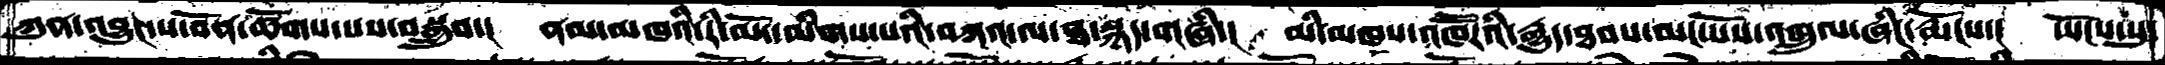ཀུན་འབྱུང་ས་བོན་ཚོགས་པས་བསྒྲུབ་།  ནམ་མཁའི་རི་མོ་དམིགས་པའི་བཀའ་ལ་ཐ་སྙད་གཞི་།  མི་མཁས་འཁཽརའི་རྒྱུད་ཐབས་མང་པོས་འཁྲུལ་ཞིང་རྨོངས་།  ཡོངས་སུ་
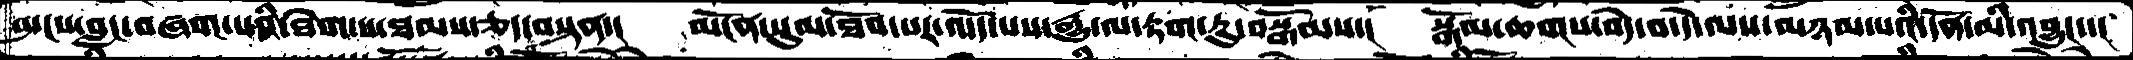སྤངས་བླང་བཞག་པའི་ཐེག་པ་ཐམས་ཅད་བསྟན་།  མངོན་སུམ་ཐོབ་པར་འདོད་པས་རྒྱུ་ལ་རྟག་ཏུ་བསྒོམས་།  སྒོམ་ཆགས་བདེ་བ་དེ་ལས་མཉམ་པའི་དོན་མི་འབྱུང་་།
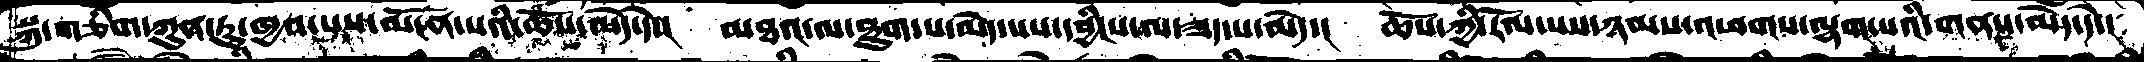སྐུ་གཅིག་ཀུན་ཏུ་ཁྱབ་པས་མངོན་པའི་ཆོས་མེད་དེ་།   མཐའ་ལ་ཐུག་པ་མེད་པས་དབྱིངས་ལ་ཟད་པ་མེད་།  ཆོས་ཀྱི་རོལ་པས་ཉམས་འཕགས་ལྷག་པའི་གནས་མེད་དེ་།
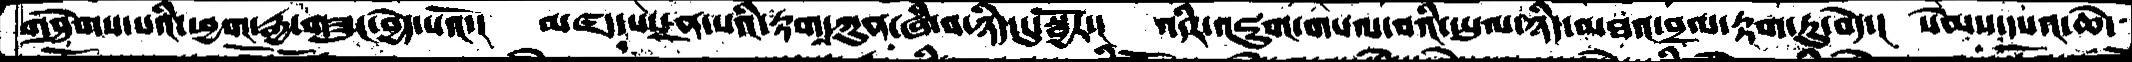གཤེགས་པའི་ཕྱག་རྒྱ་གཟུང་བྱེད་པའོ་།  མཛད་པ་དྲན་པའི་རྟག་ཀུན་ཞི་བ་ཉིད་དུ་སྦྱོར་།  འདིར་འཇུག་གསལ་བའི་ཡུལ་ཉིད་མཐའ་བྲལ་རྟག་ཏུ་བདེ་།  སེམས་དཔའ་ཆེ་
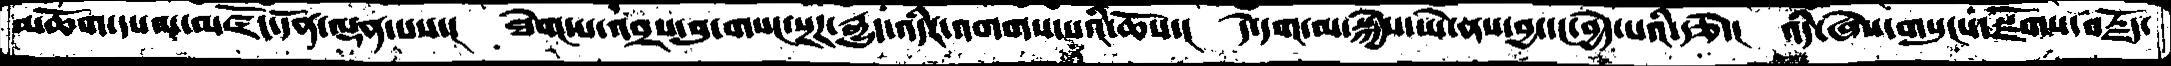མཆོག་དཔལ་མཛོད་དོན་ལྡན་པས་།  ཐེག་པ་འབྲས་བུ་གསང་སྔཌ་རྒྱུད་འདིར་འགགས་པའི་ཆོས་།  དེ་དག་མ་སྐྱེས་ཡེ་ནས་བྱ་དང་བྱེད་པའི་རྩེ་།  འདི་ཞེས་གསུངས་སྫོགས་བརྗོད་
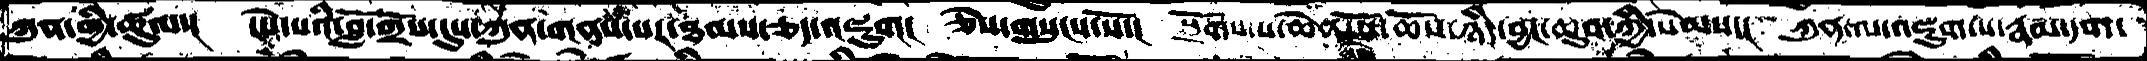ཀུན་གྱི་ཚུལ་།  ངེས་པའི་བློ་གྲོས་དུས་ཀུན་གནས་པར་ཐམས་ཅད་འཇུག།   ཅེས་གསུངས་སོ་།  སྫོགས་པ་ཆེན་པོ་ཆོས་ཉིད་བྱང་ཆུབ་ཀྱི་སེམས་།  ཀུན་ལ་འཇུག་པ་རྣམ་དག་
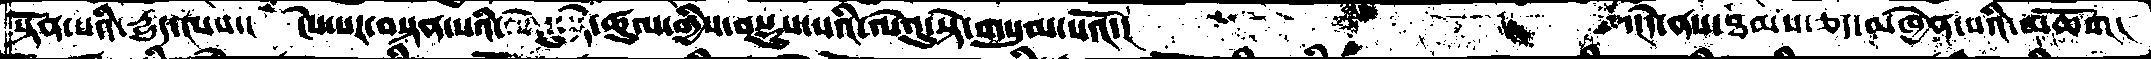སྟོན་པའི་དྱུད་ལས་།  ངེས་པར་བསྟན་པའི་ལེའུ་སྟེ་ཚུལ་གྱིས་བསྡུས་པའི་ལེའུ་སྟེ་གསུམ་པའོ་།     ་།དེ་ནས་ཐམས་ཅད་མཁྱེན་པའི་མཆོག།
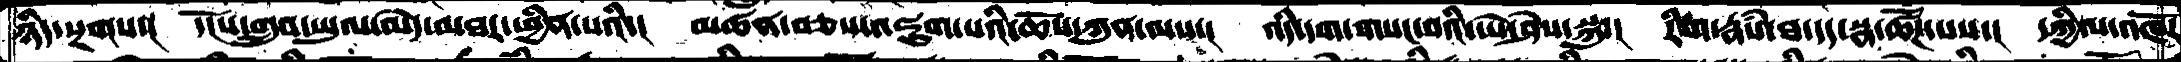ཉིད་སྔགས་།  དངོས་གྲུབ་ཡུལ་མེད་མཐར་ཕྱིན་པའི་།  མཚན་བཅས་འཇུག་པའི་ཆོས་ཀུན་ལས་།  འདི་དག་གསང་བའི་ཡེ་ཤེས་སྐུ་།  རིག་རྣཾས་ཐ་དད་སྣ་ཚོཌ་པས་།  དཀྱིལ་འཁོར
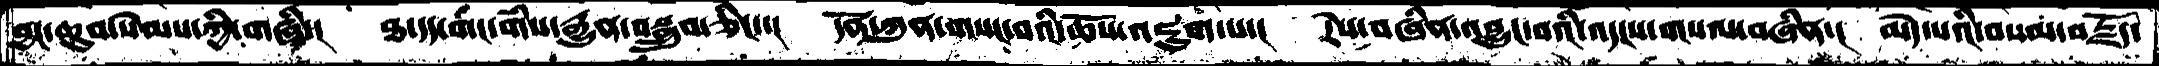བྱང་ཆུབ་སེམས་ཀྱི་གཞི་།  ཐ་དད་གང་གིས་རྒྱུན་བསྒྲུབ་ཅིང་་།  དོན་ཀུན་གསང་བའི་ཆོས་འཇུག་པ་།  རེས་བཞིན་འབྱུང་བའི་འདངས་གསལ་བཞིན་།  མེད་པའི་བསམ་བརྗོད་
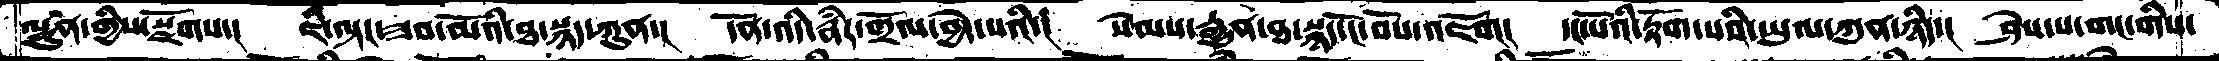ལྷུན་གྱིས་སྫོགས་།  ཇི་ལྟར་ཟབ་མོའི་ཐ་སྙད་ཀུན་།  དོན་འདི་རྣཾར་གྲོལ་བྱེད་པའི་།  སེམས་རྒྱུན་ཐ་སྙད་ངོ་བོས་འཇོག། དང་པོའི་རྟོག་པའི་ཡུལ་ཀུན་ཉིད་།  ཤེས་པ་གང་གིས་
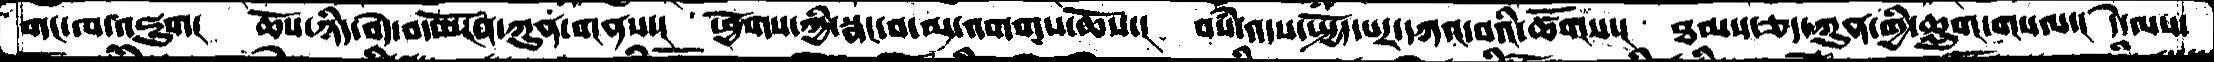གང་ལ་འཇུག།  ཆོས་ཉིད་བདེ་བ་མངོན་ཀུན་གནས་།  ཕྱོགས་ཀྱི་སྣང་བ་མ་འགགས་ཆོས་།  བསཾ་འདས་སྤྱོད་པར་དཀའ་བའི་ཚོགས་།  ཐམས་ཅད་ཀུན་གྱི་ཆླུག་གསལ་།  དེ་ལས་
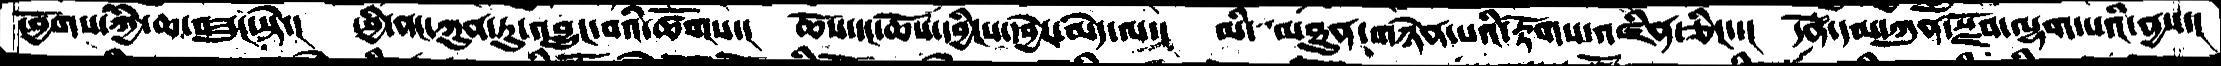ཕྱོགས་ཀྱི་ཆ་བཟུང་སྟེ་།  ཕྱི་ནང་ཀུན་ཏུ་འབྱུང་བའི་ཚོགས་།  ཆོས་དང་ཆོས་དབྱིངས་དབྱེར་མེད་ལ་།  མི་མཐུན་གཉེན་པའི་རྟོགས་འཛིན་ཅིང་་།  དོན་དམ་ཀུན་སྫོབ་ལྷག་པའི་ནྱས་།
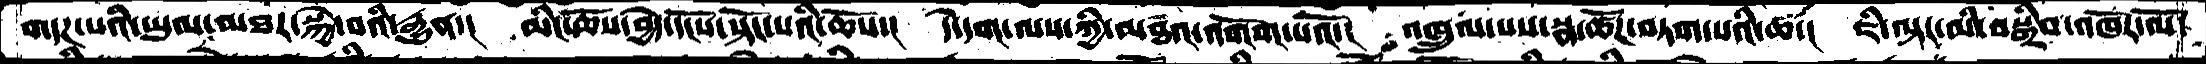གདཌ་པའི་ཡུལ་མཐར་སྐྱེ་བའི་རྒྱུན་།  མིང་ཆོས་བྱེད་དངོས་སྟོང་པའི་ཆོས་།  དེ་དག་ལས་ཀྱི་མཐའ་འགོག་པའོ་།  འཁྲུལ་པས་སྣ་ཚོཌ་བཏག་པའི་ཚ་།  ཇི་ལྟར་མི་བསྒྲིབ་འཁོར་ལོ་
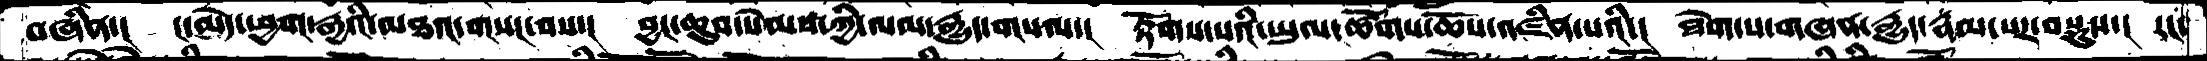བཞིན་།  ང་མེད་ཕྱག་རྒྱའི་མཐའ་གསང་བས་།  བྱང་ཆུབ་སེམས་ཀྱི་ལམ་རྒྱུད་གསལ་།  རྟོགས་པའི་ཡུལ་ཚོགས་ཆོས་འཛིན་པའི་།  ཐེག་པ་གཞན་རྒྱུད་རྣམ་པར་བསྡུས་།  རང་
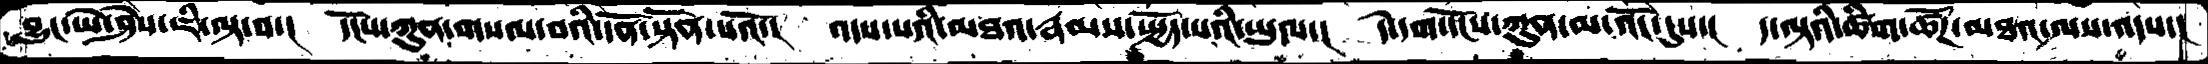བྱུང་ཡེ་ཤེས་ཇི་ལྟ་བ་།  དངོས་ཀུན་གསལ་བའི་དོན་སྟོན་པའོ་།  འདས་པའི་མཐའ་རྣམས་སྤྱོད་པའི་ཡུལ་།  དེ་དག་དངོས་ཀུན་མ་འོང་དུས་།  ད་ལྟའི་ཚིག་ཚོཌ་མཐའ་ལས་འདས་།
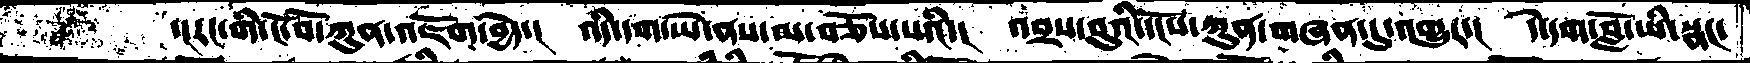་།རང་གི་ངོ་བོ་ཀུན་འཇོག་བྱེད་།  འདི་དག་ཡེ་ནས་མ་བཅོས་པའི་།  འབྲས་བུའི་དངོས་ཀུན་གཞན་དུ་འགྱུར་།  དེ་དག་བློ་ཡི་སྣང་
